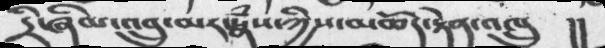དྲི་ཞིམ་འབྲུ་མར་སྣཾས་ཀྱིས་མཆོད་རྟེན་འཁྲུ  །།
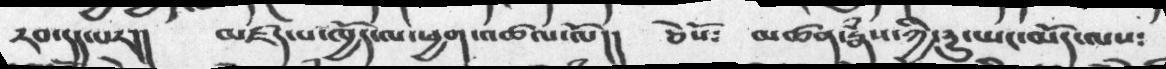རབ་དད་པར།།   མཛད་པ་ཁྱོད་ལ་ཕྱག་འཚལ་ལོ།།  ཅེསོ༴   མཚན་རྣཾས་ཀྱི་དྱུ་ཡང་མོད་ལས༴
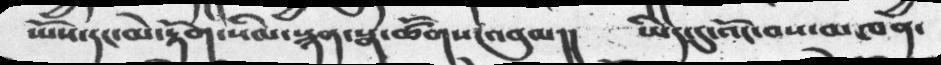སྤོས་དང་མེ་རྟོག་སིལ་སྙན་སྣ་ཚོགས་འབུལ།།   ཡིད་དུ་འོང་བས་མཁན་
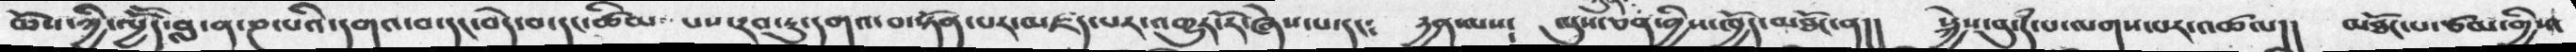ཆོས་ཀྱི་ལྱོོད་བླ་ན་ཎ་པའི་དགའ་བ་དང་བདེ་བ་དང་ཚིམ པས་རབ་ཏུ་དགའ་བ་སྟོན་པར་མཛད་པར་འགྱུར་རོ་ཞེས་པ་དང༴  དྱན་ལས༴  ལུས་ཅན་བྱིས་ཁྱོད་མཐོང་ན།།   སྐྱེས་བུ་དཾ་པ་ལགས་པར་འཚལ།།  མཐོང་པ་ཙམ་གྱིས་
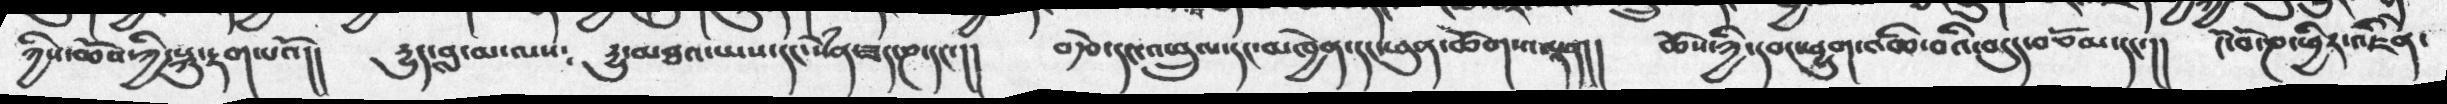ཀྱིས་ཆོས་ཀྱི་སྐུ་རྟག་པའོ།།  དྱུད་བླ་མ་ལས༴  དྱུ་མཐའ་ཡས་དང་སེཾན་ཟད་ཎ་དང་།།  བརྩེ་དང་འཕྲུལ་དང་མཁྱེན་དང་ཕུན་ཚོགས་ལྡན།།    ཆོས་ཀྱི་དབང་ཕྱུག་འཆི་བའི་བདུད་བཅོམ་དང་།།  ངོ་བོ་ཎ་ཕྱིར་འཇིེན་
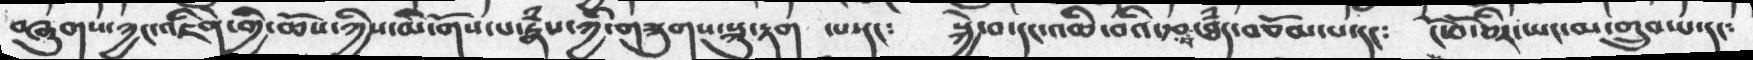བཞུགས་ཀྱང་འཇིེན་གྱི་ཆོས་ཀྱིས་མི་གོས་པ་རྣཾས་ཀྱི་གཟུགས་སྐུ་རྟག་  ་པདང༴   སྐྱེ་བ་དང་འཆི་བའི་རྩ་བ་ཐཾད་བཅོམ་པ་དང༴  ངོ་བོ་ཅིར་ཡང་མ་གྲུབ་པ་དང༴
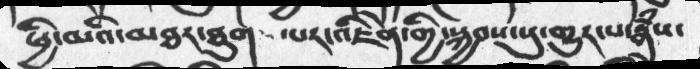ཕྱི་མའི་མཐར་ཐུག་ པར་འཇིེན་གྱི་སྐྱབས་སུ་གྱུར་པ་རྣཾས་
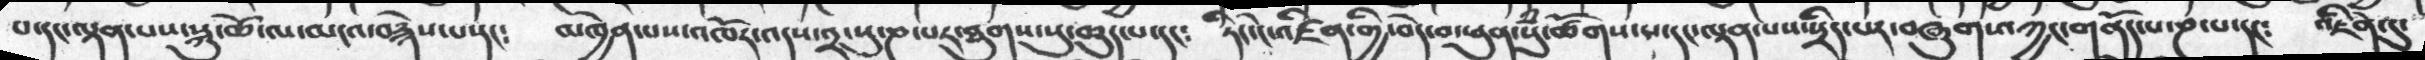པ་དང་ལྡན་པས་སྐུ་ཚེ་ལ་མངའ་བརྙེས་པ་དང༴  མཁྱེན་པས་འཁོར་འདས་༢་སུ་ཎ་པར་ཐུགས་སུ་ཆུད་པ་དང༴  ཏིང་ངེ་འཛིན་གྱི་བདེ་བ་ཕུན་སུཾ་ཚོགས་པ་དང་ལྡན་པས་སྲིད་པར་བཞུགས་ཀྱང་གནོད་པ་ཎ་པ་དང༴  འཇིེན་དུ་
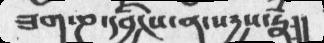ཟག་ཎ་དབྱིངས་ན་སདྱས་རྣཾ།།
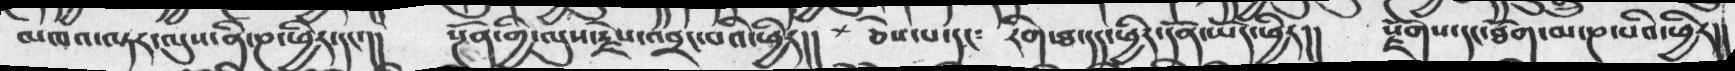མཁའ་ལྟར་ལུས་ནི་ཎ་ཕྱིར་དང་།།  སྔོན་གྱི་ལུས་རྗེས་འབྲང་བའི་ཕྱིར།།  + ཅེས་པ་དང༴  རིག་ཐ་དད་ཕྱིར་དོན་ཡོད་ཕྱིར།།  རྫོགས་དང་ཐོག་མ་ཎ་པའི་ཕྱིར།།
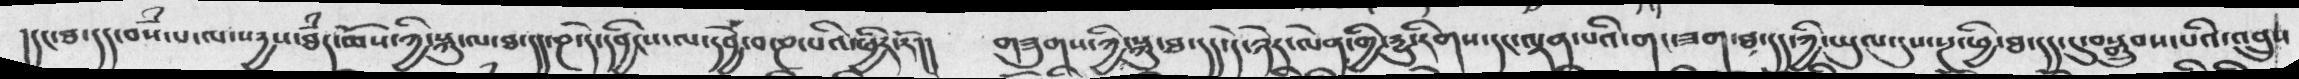།དང་ཐ་དད་བསཾ་པ་ལ་སདྱས་ཐཾད་ཆོས་ཀྱི་སྐུ་ལ་ཐ་དད་ཎ་དེ་དབྱིངས་ལ་དབྱེ་བ་ཎ་པའི་ཕྱིར་རོ།།   གཟུགས་ཀྱི་སྐུ་ཐ་དད་དེ་ཉེར་ལེན་གྱི་རྱུ་རིགས་དང་ལྡན་པའི་གང་ཟག་ཐ་དད་ཀྱི་ཡུལ་དུས་སྔ་ཕྱི་ཐ་དད་དུ་བསྒྲུབས་པའི་འབྲུས་
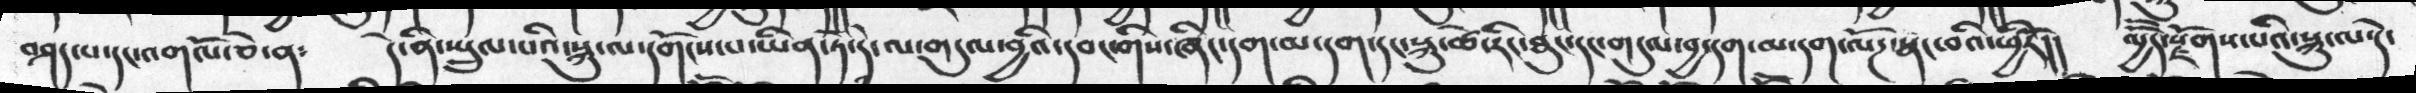བཤད་པ་དང་འགལོ་ཅེ་ན༴  དེ་ནི་སྤྲུལ་པའི་སྐུ་ལ་དགོངས་པ་ཡིན་ཏེ་དེ་ལ་གདུལ་བྱའི་དབང་གིས་ཞིང་དག་མ་དག་དང་སྐུ་ཚེ་རིང་ཐུང་དང་གདུལ་བྱ་དག་མ་དག་ལོཌ་སྣང་བའི་ཕྱིརོ།།  ལྱོོད་སྫོགས་པའི་སྐུ་ལ་དེ་
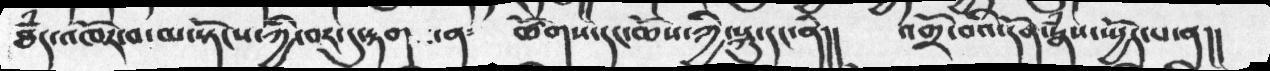ཐཾད་འཁོར་བ་མ་སྟོངས་ཀྱི་བར་དུ་རྟག ་ན༴  ཚོགས་དང་ཆོས་ཀྱི་སྐུ་དང་ནི།།  འགྲོ་བའི་དོན་རྣཾས་སྤྱོད་པ་ན།།
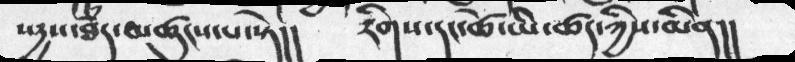སདྱས་ཐཾད་མཚུངས་པ་སྟེ།།  རིགས་དང་ཚེ་ཡི་ཚད་ཀྱིས་མིན།།
